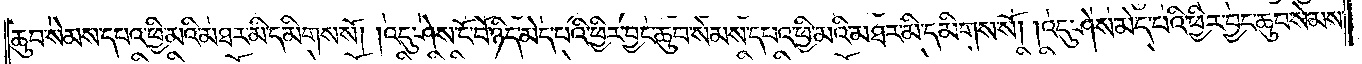ཆུབ་སེམས་དཔའ་ཕྱི་མའི་མཐར་མི་དམིགས་སོ། །འདུ་ཤེས་ངོ་བོ་ཉིད་མེད་པའི་ཕྱིར་བྱང་ཆུབ་སེམས་དཔའ་ཕྱི་མའི་མཐར་མི་དམིགས་སོ། །འདུ་ཤེས་མེད་པའི་ཕྱིར་བྱང་ཆུབ་སེམས་
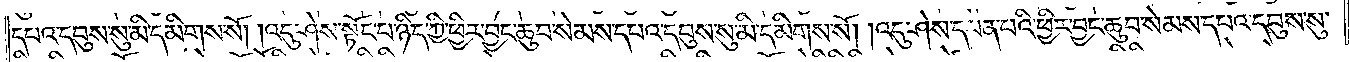དཔའ་དབུས་སུ་མི་དམིགས་སོ། །འདུ་ཤེས་སྟོང་པ་ཉིད་ཀྱི་ཕྱིར་བྱང་ཆུབ་སེམས་དཔའ་དབུས་སུ་མི་དམིགས་སོ། །འདུ་ཤེས་དབེན་པའི་ཕྱིར་བྱང་ཆུབ་སེམས་དཔའ་དབུས་སུ་
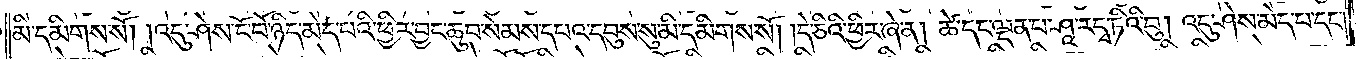མི་དམིགས་སོ། །འདུ་ཤེས་ངོ་བོ་ཉིད་མེད་པའི་ཕྱིར་བྱང་ཆུབ་སེམས་དཔའ་དབུས་སུ་མི་དམིགས་སོ། །དེ་ཅིའི་ཕྱིར་ཞེ་ན། ཚེ་དང་ལྡན་པ་ཤཱ་རདྭ་ཏིའི་བུ། འདུ་ཤེས་མེད་པ་དང༌།
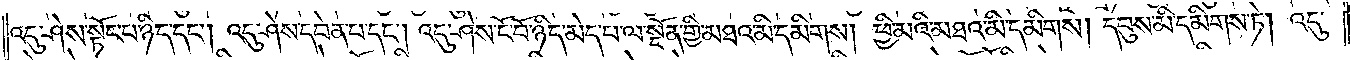འདུ་ཤེས་སྟོང་པ་ཉིད་དང༌། འདུ་ཤེས་དབེན་པ་དང༌། འདུ་ཤེས་ངོ་བོ་ཉིད་མེད་པ་ལ་སྔོན་གྱི་མཐའ་མི་དམིགས། ཕྱི་མའི་མཐའ་མི་དམིགས། དབུས་མི་དམིགས་ཏེ། འདུ་
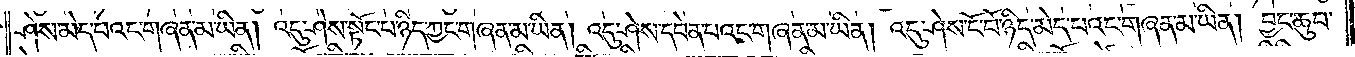ཤེས་མེད་པའང་གཞན་མ་ཡིན། འདུ་ཤེས་སྟོང་པ་ཉིད་ཀྱང་གཞན་མ་ཡིན། འདུ་ཤེས་དབེན་པའང་གཞན་མ་ཡིན། འདུ་ཤེས་ངོ་བོ་ཉིད་མེད་པའང་གཞན་མ་ཡིན། བྱང་ཆུབ་
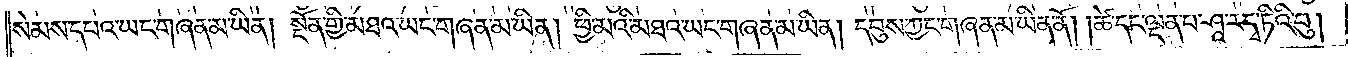སེམས་དཔའ་ཡང་གཞན་མ་ཡིན། སྔོན་གྱི་མཐའ་ཡང་གཞན་མ་ཡིན། ཕྱི་མའི་མཐའ་ཡང་གཞན་མ་ཡིན། དབུས་ཀྱང་གཞན་མ་ཡིན་ནོ། །ཚེ་དང་ལྡན་པ་ཤཱ་རདྭ་ཏིའི་བུ།
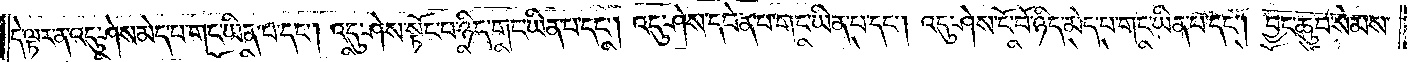དེ་ལྟར་ན་འདུ་ཤེས་མེད་པ་གང་ཡིན་པ་དང༌། འདུ་ཤེས་སྟོང་པ་ཉིད་གང་ཡིན་པ་དང༌། འདུ་ཤེས་དབེན་པ་གང་ཡིན་པ་དང༌། འདུ་ཤེས་ངོ་བོ་ཉིད་མེད་པ་གང་ཡིན་པ་དང༌། བྱང་ཆུབ་སེམས་
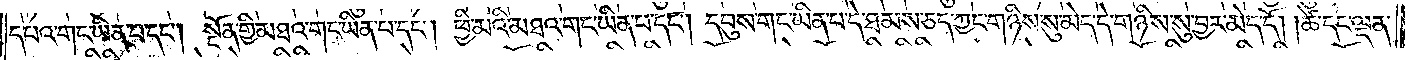དཔའ་གང་ཡིན་པ་དང༌། སྔོན་གྱི་མཐའ་གང་ཡིན་པ་དང༌། ཕྱི་མའི་མཐའ་གང་ཡིན་པ་དང༌། དབུས་གང་ཡིན་པ་དེ་ཐམས་ཅད་ཀྱང་གཉིས་སུ་མེད་དེ་གཉིས་སུ་བྱར་མེད་དོ། །ཚེ་དང་ལྡན་
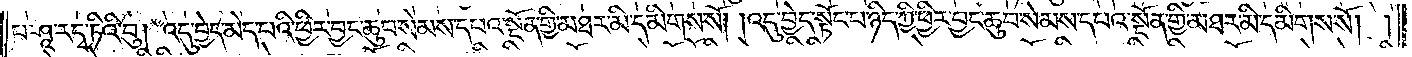པ་ཤཱ་རདྭ་ཏིའི་བུ། འདུ་བྱེད་མེད་པའི་ཕྱིར་བྱང་ཆུབ་སེམས་དཔའ་སྔོན་གྱི་མཐར་མི་དམིགས་སོ། །འདུ་བྱེད་སྟོང་པ་ཉིད་ཀྱི་ཕྱིར་བྱང་ཆུབ་སེམས་དཔའ་སྔོན་གྱི་མཐར་མི་དམིགས་སོ། །
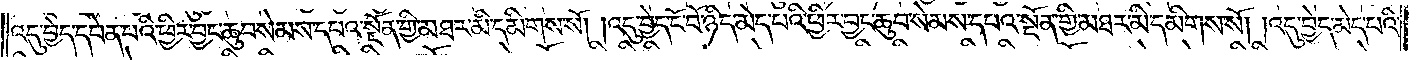འདུ་བྱེད་དབེན་པའི་ཕྱིར་བྱང་ཆུབ་སེམས་དཔའ་སྔོན་གྱི་མཐར་མི་དམིགས་སོ། །འདུ་བྱེད་ངོ་བོ་ཉིད་མེད་པའི་ཕྱིར་བྱང་ཆུབ་སེམས་དཔའ་སྔོན་གྱི་མཐར་མི་དམིགས་སོ། འདུ་བྱེད་མེད་པའི་
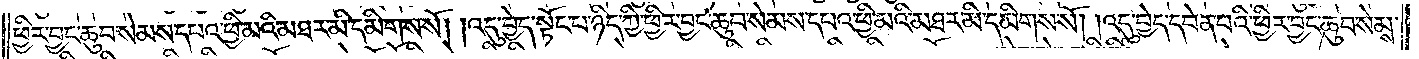ཕྱིར་བྱང་ཆུབ་སེམས་དཔའ་ཕྱི་མའི་མཐར་མི་དམིགས་སོ། །འདུ་བྱེད་སྟོང་པ་ཉིད་ཀྱི་ཕྱིར་བྱང་ཆུབ་སེམས་དཔའ་ཕྱི་མའི་མཐར་མི་དམིགས་སོ། །འདུ་བྱེད་དབེན་པའི་ཕྱིར་བྱང་ཆུབ་སེམས་
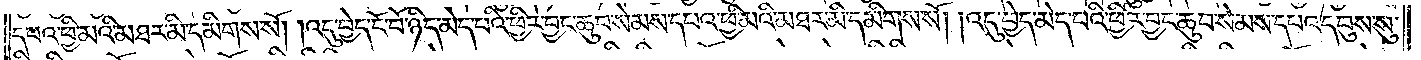དཔའ་ཕྱི་མའི་མཐར་མི་དམིགས་སོ། །འདུ་བྱེད་ངོ་བོ་ཉིད་མེད་པའི་ཕྱིར་བྱང་ཆུབ་སེམས་དཔའ་ཕྱི་མའི་མཐར་མི་དམིགས་སོ། །འདུ་བྱེད་མེད་པའི་ཕྱིར་བྱང་ཆུབ་སེམས་དཔའ་དབུས་སུ་
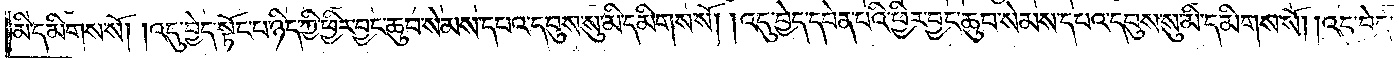མི་དམིགས་སོ། །འདུ་བྱེད་སྟོང་པ་ཉིད་ཀྱི་ཕྱིར་བྱང་ཆུབ་སེམས་དཔའ་དབུས་སུ་མི་དམིགས་སོ། །འདུ་བྱེད་དབེན་པའི་ཕྱིར་བྱང་ཆུབ་སེམས་དཔའ་དབུས་སུ་མི་དམིགས་སོ། །འདུ་བྱེད་
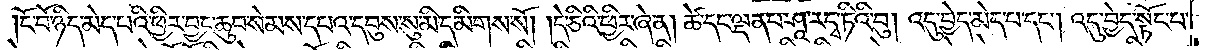ངོ་བོ་ཉིད་མེད་པའི་ཕྱིར་བྱང་ཆུབ་སེམས་དཔའ་དབུས་སུ་མི་དམིགས་སོ། །དེ་ཅིའི་ཕྱིར་ཞེ་ན། ཚེ་དང་ལྡན་པ་ཤཱ་རདྭ་ཏིའི་བུ། འདུ་བྱེད་མེད་པ་དང༌། འདུ་བྱེད་སྟོང་པ་
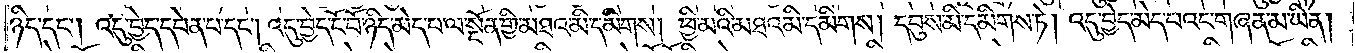ཉིད་དང༌། འདུ་བྱེད་དབེན་པ་དང༌། འདུ་བྱེད་ངོ་བོ་ཉིད་མེད་པ་ལ་སྔོན་གྱི་མཐའ་མི་དམིགས། ཕྱི་མའི་མཐའ་མི་དམིགས། དབུས་མི་དམིགས་ཏེ། འདུ་བྱེད་མེད་པའང་གཞན་མ་ཡིན།
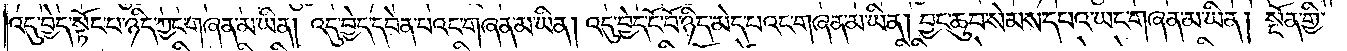འདུ་བྱེད་སྟོང་པ་ཉིད་ཀྱང་གཞན་མ་ཡིན། འདུ་བྱེད་དབེན་པའང་གཞན་མ་ཡིན། འདུ་བྱེད་ངོ་བོ་ཉིད་མེད་པའང་གཞན་མ་ཡིན། བྱང་ཆུབ་སེམས་དཔའ་ཡང་གཞན་མ་ཡིན། སྔོན་གྱི་
